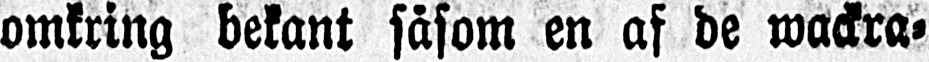omkring bekant såsom en af de wackra-
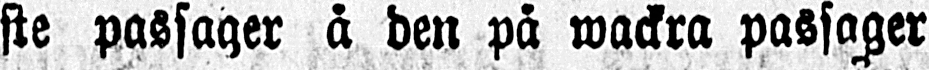ste passager å den på wackra passager
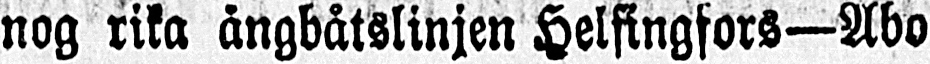nog rika ångbåtslinjen Helsingfors—Åbo
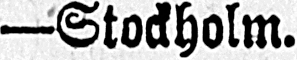—Stockholm.
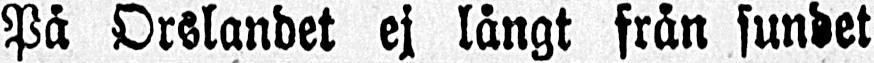På Orslandet ej långt från sundet
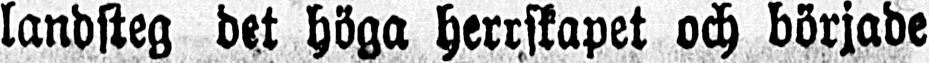landsteg det höga herrskapet och började
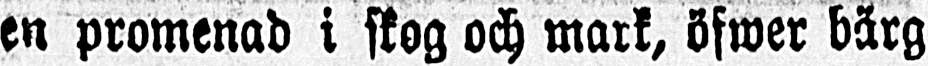en promenad i skog och mark, öfwer bärg
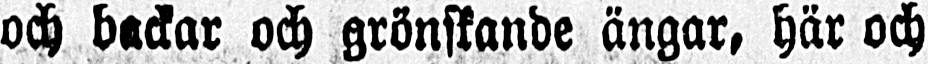och backar och grönskande ängar, här och
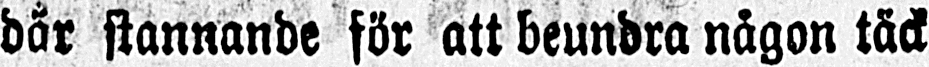där stannande för att beundra någon täck
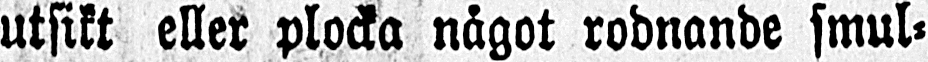utsikt eller plocka något rodnande smul-
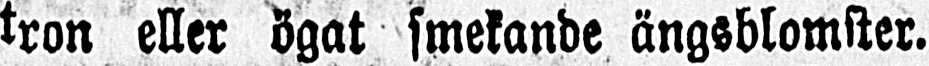tron eller ögat smekande ängsblomster.
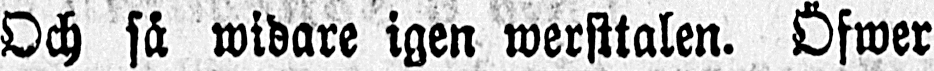Och så widare igen wersttalen. Öfwer
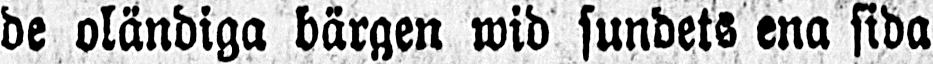de oländiga bärgen wid sundets ena sida
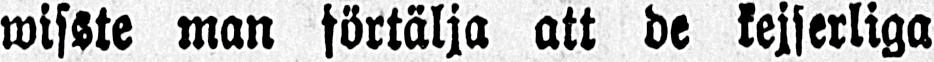wisste man förtälja att de kejserliga
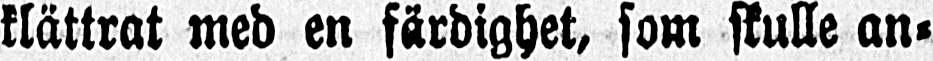klättrat med en färdighet, som skulle an-
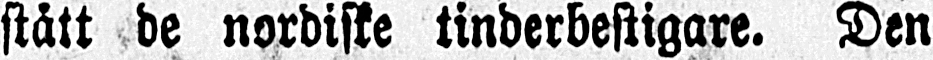stått de nordiske tinderbestigare. Den
